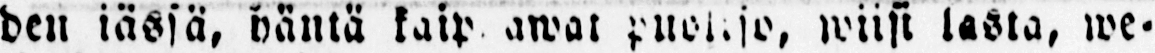den iässä, häntä kaip awat puoliso, wiisi lasta, we-
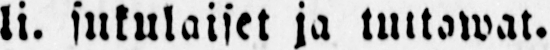li. sukulaiset ja tuttawat.
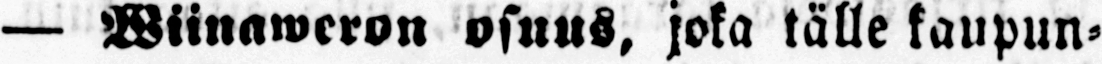— Wiinaweron osuus, joka tälle kaupun-
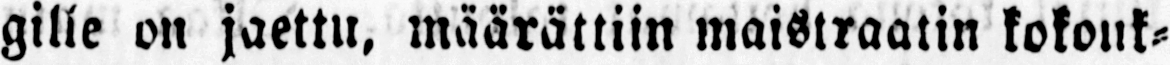gille on jaettu, määrättiin maistraatin kokouk-
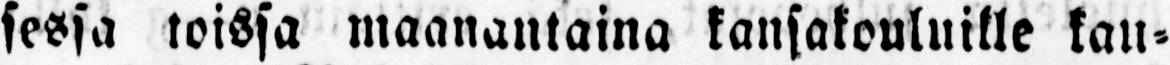sessa toissa maanantaina kansakouluille kau-
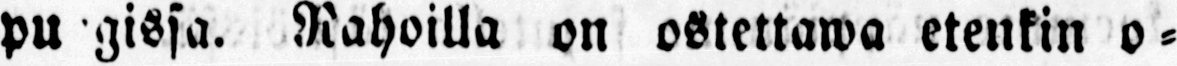pu gissa. Nahoilla on ostettawa etenkin o-
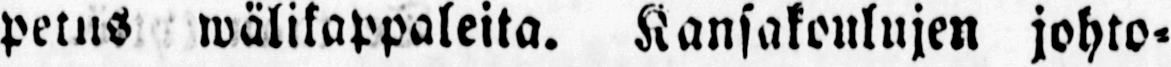petus wälikappaleita. Kansakoulujen johto-
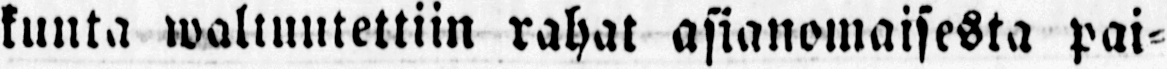kunta waltuutettiin rahat asianomaisesta pai-
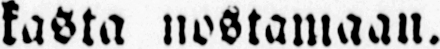kasta nostamaan.
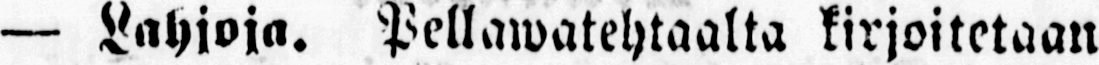— Lahjoja. Pellawatehtaalta kirjoitetaan
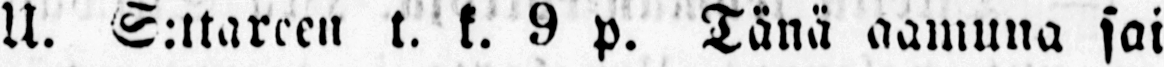U. S:tttareen t. k. 9 p. Tänä aamuna sai
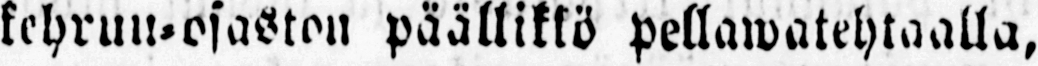kehruu-osaston päällikkö pellawatehtaalla,Ot-
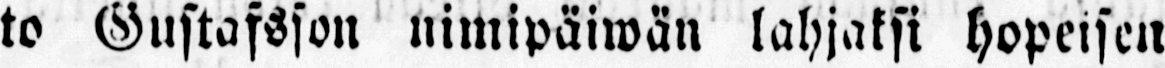to Gustafsson nimipäiwän lahjaksi hopeisen
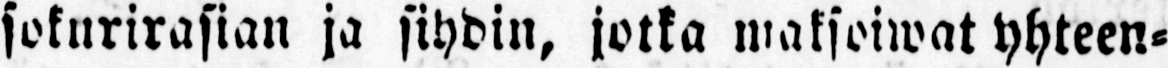sokurirasian ja sihdin, jotka maksoiwat yhteen-
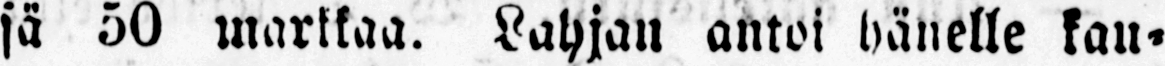sä 50 markkaa. Lahjan antoi hänelle kau-
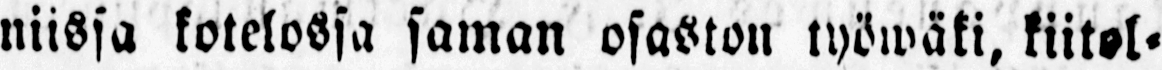niissa kotelossa saman osaston työwäki, kiitel-
